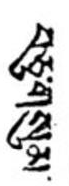བཅུ་གསུམ་
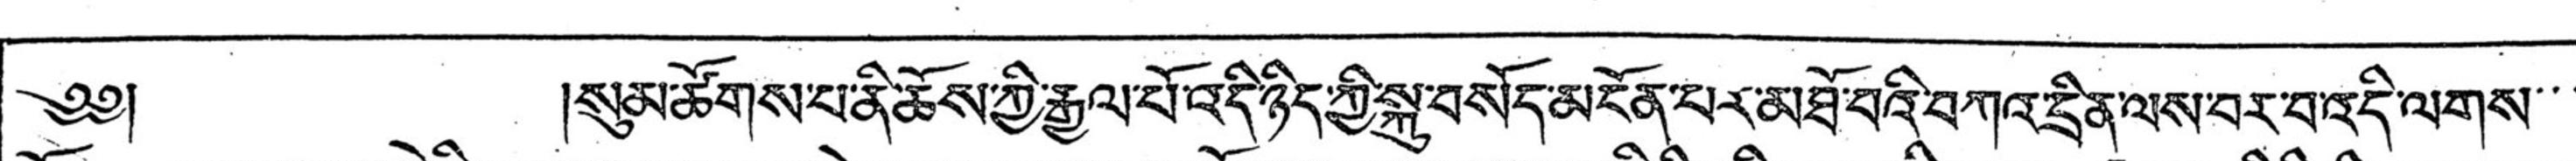༄༅། །སུམ་ཚོགས་པ་ནི་ཆོས་ཀྱི་རྒྱལ་པོ་འདི་ཉིད་ཀྱི་སྐུ་བསོད་མངོན་པར་མཐོ་བའི་བཀའ་དྲིན་ལས་བར་བ་འདི་ལགས་་་
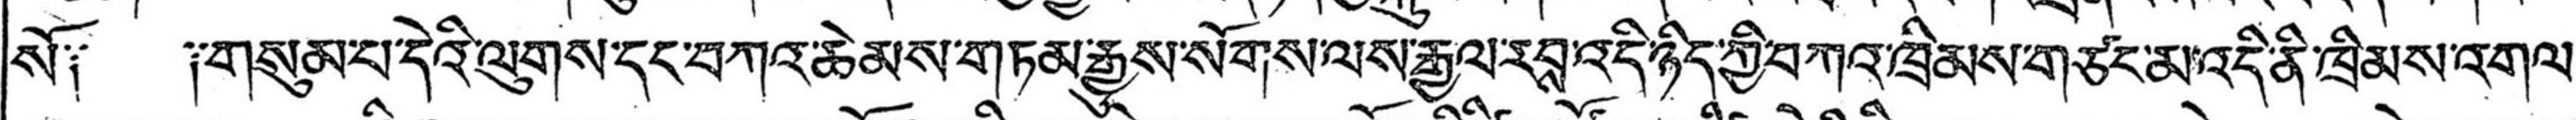སོ༑ ༑གསུམ་པ་དེའི་ལུགས་དང་བཀའ་ཆེམས་གཏམ་རྒྱུས་སོགས་ལས་རྒྱལ་རབས་འདི་ཉིད་ཀྱི་བཀའ་ཁྲིམས་གཙང་མ་འདི་ནི་ཁྲིམས་འགལ་
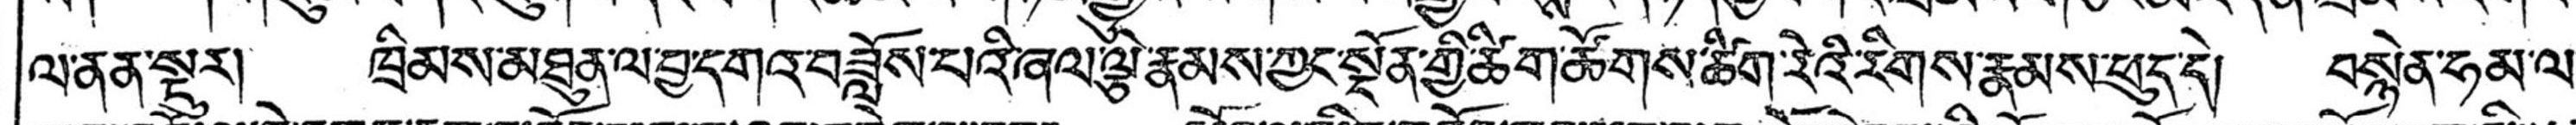ལ་ནན་སྡུར། ཁྲིམས་མཐུན་ལ་བྱ་དགའ་བཟློས་པའི་ཞལ་ལྕེ་རྣམས་ཀྱང་སྔོན་གྱི་ཚིག་ཚོགས་ཚིག་རེའི་རིགས་རྣམས་ཕུད་དེ། བསྙེན་ཧམ་ལ་
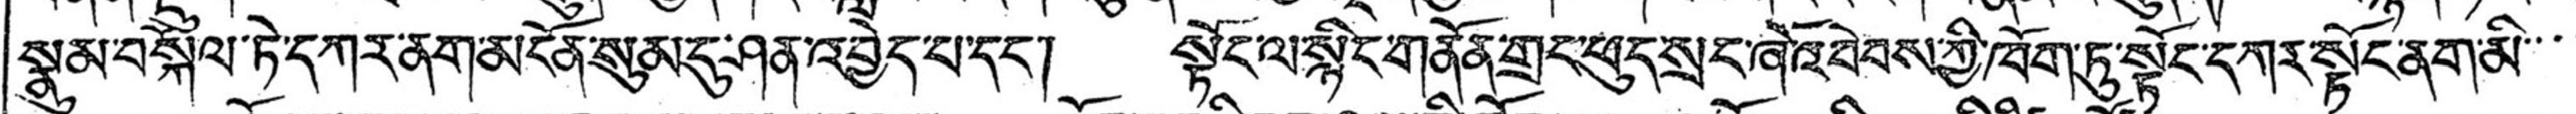སྣུམ་བསྐོལ་ཏེ་དཀར་ནག་མངོན་སུམ་དུ་ཤན་འབྱེད་པ་དང་། སྟོང་ལ་སྙིང་གནོན་གྲང་ཕུད་སྲང་ཞོའ་བེབས་ཀྱི་ཁོག་ཏུ་སྟོང་དཀར་སྟོང་ནག་མི་་་
